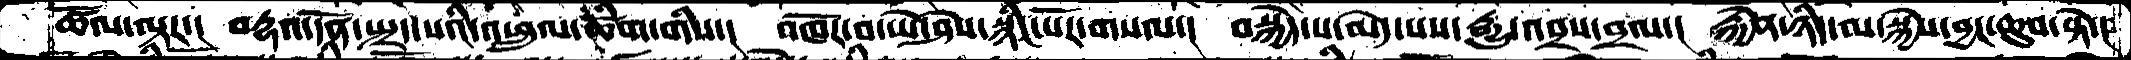ཚོལ་ལྟར་།   བརྡའ་དོན་སྤྲད་པའི་འཕྲུལ་ཚིག་གིས་།  འཁོར་བ་ཡེ་ཤེས་སྙིང་པོར་གསལ་།  བསྐྱེད་པ་མེད་པས་རྒྱུ་འབྲས་བྲལ་།  རྐྱེན་ཉིད་མ་སྐྱེས་བྱང་ཆུབ་སྟེ་།
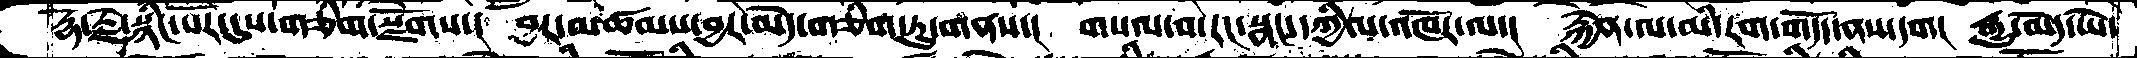རྡོ་རྗེ་སྙིང་པོར་དུས་གཅིག་སྫོགས་།  བྱར་མཚམས་བྱར་མེད་གཅིག་ཏུ་གནས་།  གསལ་བ་རང་སྣང་དཀྱིལ་འཁོར་ལ་།  རྐྱེན་ལ་མི་རག་གདོད་ནས་དག།  རྒྱུ་མེད་ཡེ་
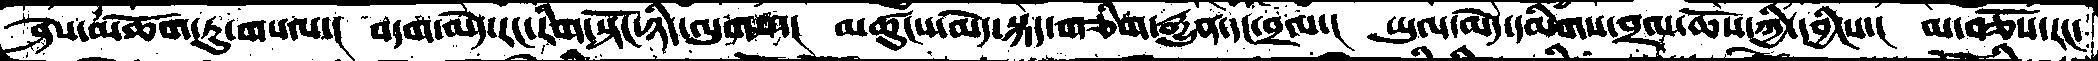ཤེས་མཆོག་ཏུ་གསལ་།  བདག་མེད་རང་རིག་སྟོང་ཉིད་ལུགས་།  མཚུངས་མེད་སྐད་གཅིག་རྒྱུན་དང་བྲལ་།  ཡུལ་མེད་དམིགས་བྲལ་ཆོས་ཀྱི་དབྱིངས་།  མ་བཅོས་རང་
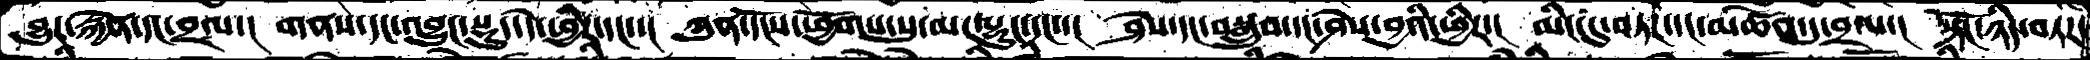བྱུར་རྐྱེན་དང་བྲལ་།  གནས་དང་འབྱུང་སྡུད་དེ་ཕྱིར་དང་་།  ཀུན་དངོས་ཕྱོགས་སུ་མར་ལྷུང་དང་་།  ཤེས་དང་བསྒྲུབ་དང་ཤེས་བྱའི་ཕྱིར་།  མིང་དུ་བཏཌ་དང་མཚོན་དུ་བྲལ་།  སྟོང་ཉིད་བཏཌ་
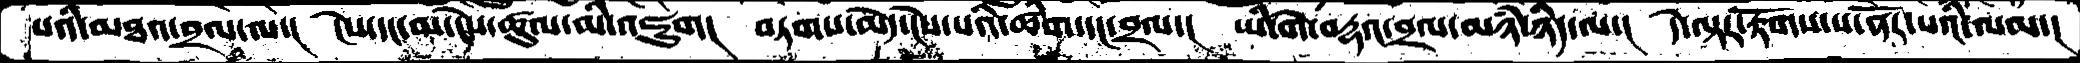པའི་མཐར་བྲལ་ལ་།  ངེས་དང་མ་ངེས་ཚུལ་མི་འཇུག།  བཏགས་མེད་ངེས་པའི་ཚིག་དང་བྲལ་།  ཡི་གེ་བརྡའ་བྲལ་མཉཾ་ཉིད་ལ་།  དེ་ལྟར་རྟོགས་པ་ནོར་པའི་ལམ་།
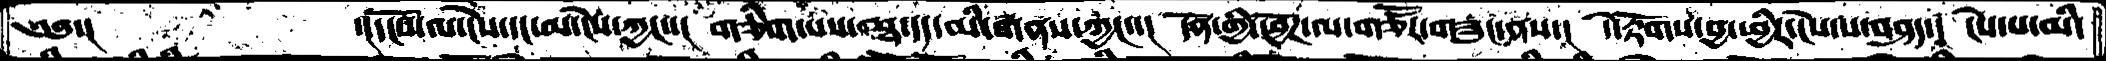༄༅་།         ་།དངོས་ལ་ངེས་དང་མ་ངེས་ཀྱང་་།  གཅིག་པས་ཐ་དད་མི་གནས་ཀྱང་་།  དོན་གྱི་ཕྱོཌ་ལ་གཙོར་གཟུང་ནས་།  དེ་རྟོགས་བྱ་ཕྱིར་ངེས་པས་བཤད་།  ངེས་པ་མི་
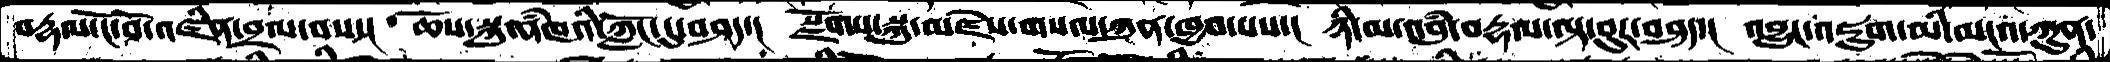བརྡལ་ངོ་བོ་འཛིན་བྲལ་བས་།  ཆོས་སྐུ་ནཾཁའི་ཀློང་དུ་བཤད་།  སྫོགས་སྐུ་མཛེས་གསལ་ཀུན་ཁྱབ་པས་།  ཉི་མ་འབུཾ་བརྡལ་ལྟ་བུར་བཤད་།  འབྱུང་འཇུག་མི་མངའ་ཀུན་
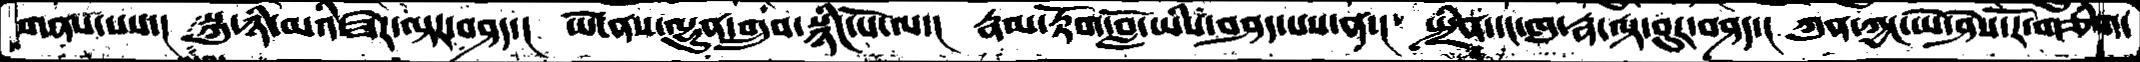གནས་པས་།  སྐུ་ཉི་མའི་ཟེར་ལྟར་བཤད་།  ཡེ་ནས་ལྷུན་གྲུབ་སྙིང་པོ་ལ་།  རྣམ་རྟོག་བློ་ཡིས་བཤད་པས་ན་།  སྤྲིན་དང་ཁུ་རྣ་ལྟ་བུར་བཤད་།  ཀུན་ཀྱང་ཡེ་ཤེས་རོ་གཅིག་
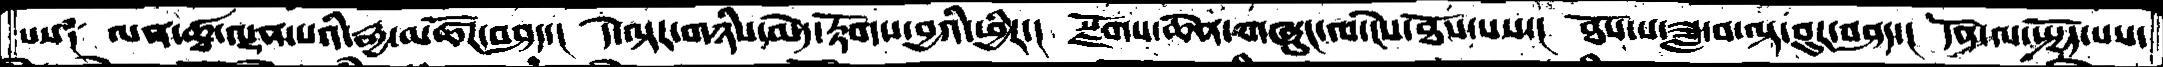པས༑  ལན་ཚྭ་ལྡན་པའི་རྒྱ་མཚོར་བཤད་།  དེ་ལྟར་གཉིས་མེད་རྟོགས་བྱའི་ཕྱིར་།  སྫོགས་ཆེན་གཞུང་ལ་ངེས་ཐོས་པས་།  ཐོས་པ་ཟླ་བ་ལྟར་བུར་བཤད་།  དོན་ལ་སྤྱོད་པས་
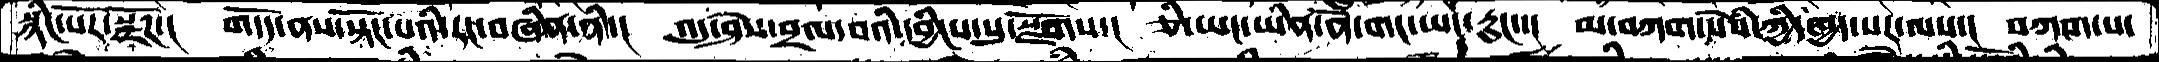སྙིང་པོར་སྫོཌ་།  གདོད་ནས་སྟོང་པའི་རང་བཞིན་ནི་།  འདུ་ཤེས་བྲལ་བའི་དབྱིངས་སུ་སྫོགས་།  ཅི་ཡང་ཡིན་ནོ་གང་ཡང་རླུང་་།  མ་བཀག་སེཾས་ཀྱི་ཁྱད་པར་ལས་།  བཀག་པ་
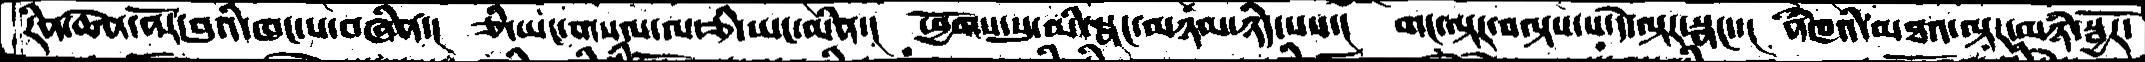རིན་ཆེན་ནོར་བུའི་ཁང་པ་བཞིན་།  ཅི་ཡང་གསལ་ལ་ཅི་ཡང་མིན་།  ཕྱོགས་སུ་མི་སྣང་མཉམ་ཉིད་པས་།  གང་ལྟར་བལྟས་པ་དེ་ལྟར་སྣང་་།  ནཾཁའི་མཐའ་ལྟར་མཉཾ་སྦྱོར་
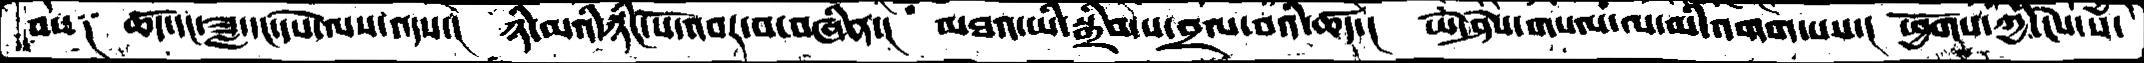བས༑  ཚད་དང་ཟླ་དང་དཔེ་ལས་འདས་།  ཉི་མའི་སྙིང་པོ་འབར་བ་བཞིན་།  མཐའ་ཡི་སྒྲིབ་པ་བྲལ་བའི་ཚད་།  ཡེ་ཤེས་གསལ་ལ་མི་འགག་པས་།  ཕྱོགས་ཀྱི་ངེས་པ་
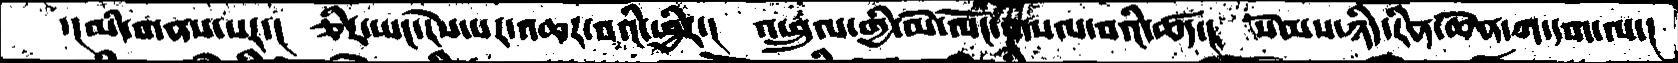་།མི་གནས་པར་།  ཅིར་ཡང་ངེས་པར་འཆར་བའི་ཕྱིར་།  འཕྲུལ་གྱི་མེ་ལོང་གསལ་བའི་ཚད་།   སེམས་ཉིད་རིན་ཆེན་ཀ་དག་ལ་།
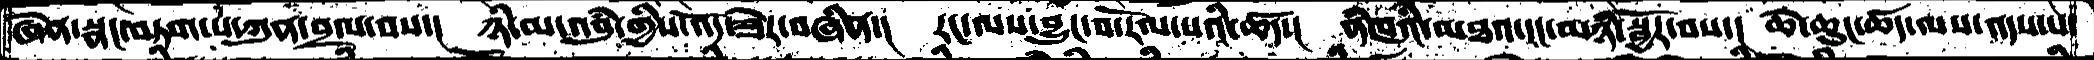ཞེན་སྣང་བཏག་པ་ཀུན་བྲལ་བས་།  ཉི་མ་འབུཾ་གྱིས་འོད་ཟེར་བཞིན་།  རང་ལས་བྱུང་བ་རོལ་པའི་ཚད་།  ནཾཁའི་མཐའ་དང་མཉཾ་སྦྱོར་བས་།  ཆེ་ཆུང་ཚད་ལས་འདས་པ་
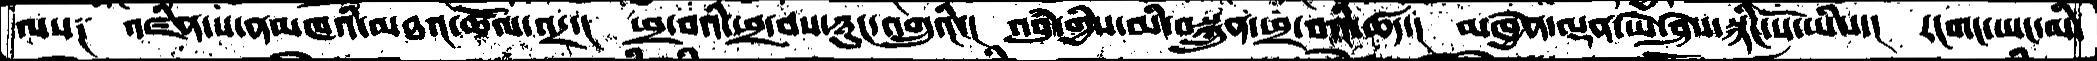ལས༑  འཛིན་པ་ནམཁའི་མཐའ་ཚོལ་འདྲ་།  ཕྲ་བའི་ཕྲ་བས་ཉུང་འགྲུའི་།  འབུཾ་གྱིས་མི་བསྐྲུན་ཕྲ་བའི་ཚད་།  མཁྱེན་ལྡན་ཡེ་ཤེས་སྙིང་པོ་ཡིས་།  རངགང་ཡང་མི་
